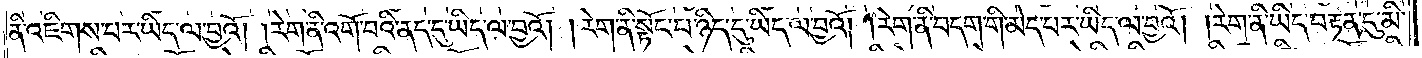ནི་འཇིགས་པར་ཡིད་ལ་བྱའོ། །རེག་ནི་འགོ་བའི་ནད་དུ་ཡིད་ལ་བྱའོ། །རེག་ནི་སྟོང་པ་ཉིད་དུ་ཡིད་ལ་བྱའོ། །རེག་ནི་བདག་གི་མེད་པར་ཡིད་ལ་བྱའོ། །རེག་ནི་ཡིད་བརྟན་དུ་མི་
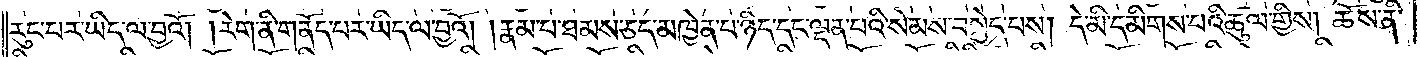རུང་བར་ཡིད་ལ་བྱའོ། །རེག་ནི་གནོད་པར་ཡིད་ལ་བྱའོ། །རྣམ་པ་ཐམས་ཅད་མཁྱེན་པ་ཉིད་དང་ལྡན་པའི་སེམས་བསྐྱེད་པས། དེ་མི་དམིགས་པའི་ཚུལ་གྱིས། ཆོས་ནི་
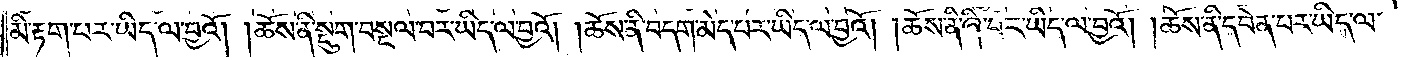མི་རྟག་པར་ཡིད་ལ་བྱའོ། །ཆོས་ནི་སྡུག་བསྔལ་བར་ཡིད་ལ་བྱའོ། །ཆོས་ནི་བདག་མེད་པར་ཡིད་ལ་བྱའོ། །ཆོས་ནི་ཞི་བར་ཡིད་ལ་བྱའོ། །ཆོས་ནི་དབེན་པར་ཡིད་ལ་
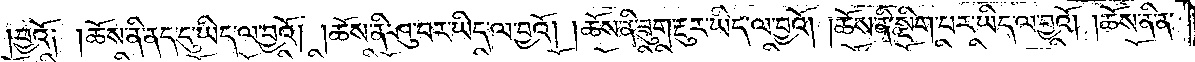བྱའོ༏ ༏ཆོས་ནི་ནད་དུ་ཡིད་ལ་བྱའོ། །ཆོས་ནི་ཤུ་པར་ཡིད་ལ་བྱའོ། །ཆོས་ནི་ཟུག་རྔུར་ཡིད་ལ་བྱའོ། །ཆོས་ནི་སྡིག་པར་ཡིད་ལ་བྱའོ། །ཆོས་ནི་ན་
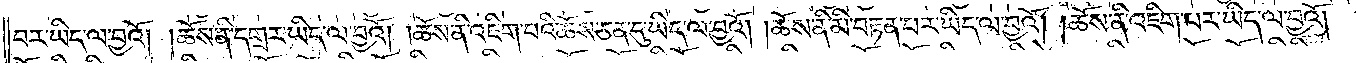བར་ཡིད་ལ་བྱའོ། །ཆོས་ནི་དགྲར་ཡིད་ལ་བྱའོ། །ཆོས་ནི་འཇིག་པའི་ཆོས་ཅན་དུ་ཡིད་ལ་བྱའོ། །ཆོས་ནི་མི་བརྟན་པར་ཡིད་ལ་བྱའོ། །ཆོས་ནི་འཇིག་པར་ཡིད་ལ་བྱའོ། །
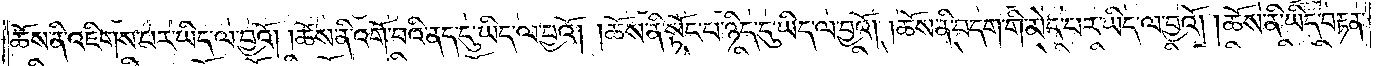ཆོས་ནི་འཇིགས་པར་ཡིད་ལ་བྱའོ། །ཆོས་ནི་འགོ་བའི་ནད་དུ་ཡིད་ལ་བྱའོ། །ཆོས་ནི་སྟོང་པ་ཉིད་དུ་ཡིད་ལ་བྱའོ། །ཆོས་ནི་བདག་གི་མེད་པར་ཡིད་ལ་བྱའོ། །ཆོས་ནི་ཡིད་བརྟན་
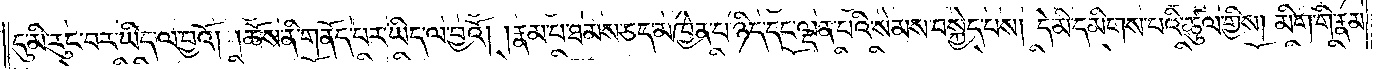དུ་མི་རུང་བར་ཡིད་ལ་བྱའོ། །ཆོས་ནི་གནོད་པར་ཡིད་ལ་བྱའོ། །རྣམ་པ་ཐམས་ཅད་མཁྱེན་པ་ཉིད་དང་ལྡན་པའི་སེམས་བསྐྱེད་པས། དེ་མི་དམིགས་པའི་ཚུལ་གྱིས། མིག་གི་རྣམ་
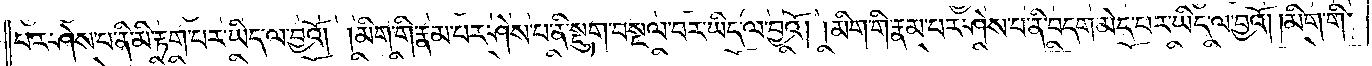པར་ཤེས་པ་ནི་མི་རྟག་པར་ཡིད་ལ་བྱའོ། །མིག་གི་རྣམ་པར་ཤེས་པ་ནི་སྡུག་བསྔལ་བར་ཡིད་ལ་བྱའོ། །མིག་གི་རྣམ་པར་ཤེས་པ་ནི་བདག་མེད་པར་ཡིད་ལ་བྱའོ། །མིག་གི་
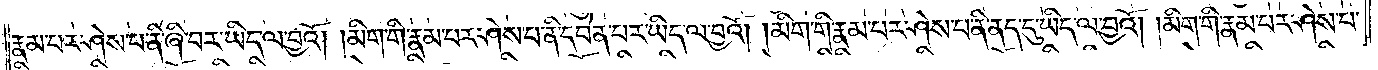རྣམ་པར་ཤེས་པ་ནི་ཞི་བར་ཡིད་ལ་བྱའོ། །མིག་གི་རྣམ་པར་ཤེས་པ་ནི་དབེན་པར་ཡིད་ལ་བྱའོ། །མིག་གི་རྣམ་པར་ཤེས་པ་ནི་ནད་དུ་ཡིད་ལ་བྱའོ། །མིག་གི་རྣམ་པར་ཤེས་པ་
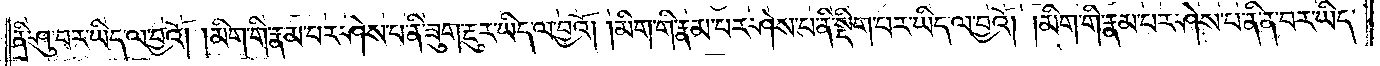ནི་ཤུ་བར་ཡིད་ལ་བྱའོ། །མིག་གི་རྣམ་པར་ཤེས་པ་ནི་ཟུག་རྔུར་ཡིད་ལ་བྱའོ། །མིག་གི་རྣམ་པར་ཤེས་པ་ནི་སྡིག་པར་ཡིད་ལ་བྱའོ། །མིག་གི་རྣམ་པར་ཤེས་པ་ནི་ན་བར་ཡིད་
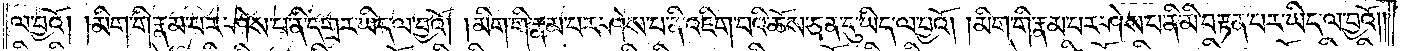ལ་བྱའོ། །མིག་གི་རྣམ་པར་ཤེས་པ་ནི་དགྲར་ཡིད་ལ་བྱའོ། །མིག་གི་རྣམ་པར་ཤེས་པ་ནི་འཇིག་པའི་ཆོས་ཅན་དུ་ཡིད་ལ་བྱའོ། །མིག་གི་རྣམ་པར་ཤེས་པ་ནི་མི་བརྟན་པར་ཡིད་ལ་བྱའོ། །
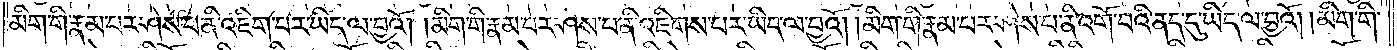མིག་གི་རྣམ་པར་ཤེས་པ་ནི་འཇིག་པར་ཡིད་ལ་བྱའོ། །མིག་གི་རྣམ་པར་ཤེས་པ་ནི་འཇིགས་པར་ཡིད་ལ་བྱའོ། །མིག་གི་རྣམ་པར་ཤེས་པ་ནི་འགོ་བའི་ནད་དུ་ཡིད་ལ་བྱའོ། །མིག་གི་
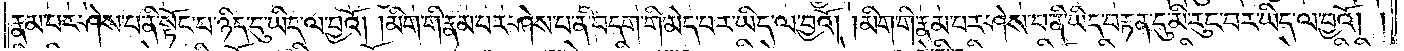རྣམ་པར་ཤེས་པ་ནི་སྟོང་པ་ཉིད་དུ་ཡིད་ལ་བྱའོ། །མིག་གི་རྣམ་པར་ཤེས་པ་ནི་བདག་གི་མེད་པར་ཡིད་ལ་བྱའོ། །མིག་གི་རྣམ་པར་ཤེས་པ་ནི་ཡིད་བརྟན་དུ་མི་རུང་བར་ཡིད་ལ་བྱའོ། །
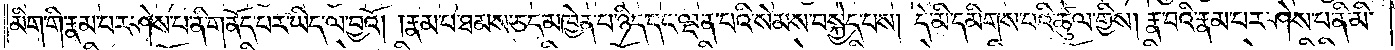མིག་གི་རྣམ་པར་ཤེས་པ་ནི་གནོད་པར་ཡིད་ལ་བྱའོ། །རྣམ་པ་ཐམས་ཅད་མཁྱེན་པ་ཉིད་དང་ལྡན་པའི་སེམས་བསྐྱེད་པས། དེ་མི་དམིགས་པའི་ཚུལ་གྱིས། རྣ་བའི་རྣམ་པར་ཤེས་པ་ནི་མི་
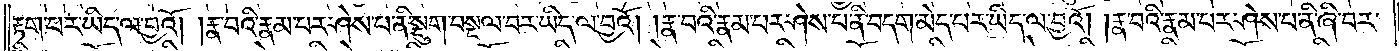རྟག་པར་ཡིད་ལ་བྱའོ། །རྣ་བའི་རྣམ་པར་ཤེས་པ་ནི་སྡུག་བསྔལ་བར་ཡིད་ལ་བྱའོ། །རྣ་བའི་རྣམ་པར་ཤེས་པ་ནི་བདག་མེད་པར་ཡིད་ལ་བྱའོ། །རྣ་བའི་རྣམ་པར་ཤེས་པ་ནི་ཞི་བར་
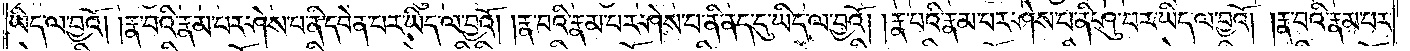ཡིད་ལ་བྱའོ། །རྣ་བའི་རྣམ་པར་ཤེས་པ་ནི་དབེན་པར་ཡིད་ལ་བྱའོ། །རྣ་བའི་རྣམ་པར་ཤེས་པ་ནི་ནད་དུ་ཡིད་ལ་བྱའོ། །རྣ་བའི་རྣམ་པར་ཤེས་པ་ནི་ཤུ་བར་ཡིད་ལ་བྱའོ། །རྣ་བའི་རྣམ་པར་
